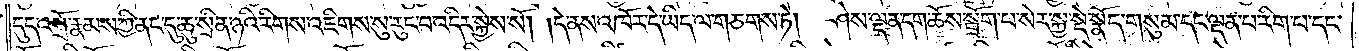དུད་འགྲོ་རྣམས་ཀྱི་ནང་དུ་ཆུ་སྲིན་ཉའི་རིགས་འཇིགས་སུ་རུང་བ་འདིར་སྐྱེས་སོ། །དེ་ནས་འཁོར་དེ་ཡིད་ལ་གཅགས་ཏེ། ཤེས་ལྡན་དག་ཆོས་སྒྲོག་པ་སེར་སྐྱ་སྡེ་སྣོད་གསུམ་དང་ལྡན་པ་རིག་པ་དང་
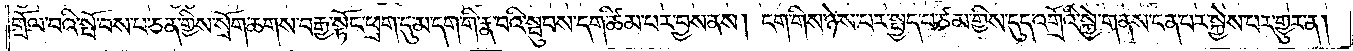གྲོལ་བའི་སྤོབས་པ་ཅན་གྱིས་སྲོག་ཆགས་བརྒྱ་སྟོང་ཕྲག་དུ་མ་དག་གི་རྣ་བའི་སྦུབས་དག་ཚིམ་པར་བྱས་ནས། ངག་གི་ཉེས་པར་སྤྱད་པ་ཙམ་གྱིས་དུད་འགྲོའི་སྐྱེ་གནས་ངན་པར་སྐྱེས་པར་གྱུར་ན།
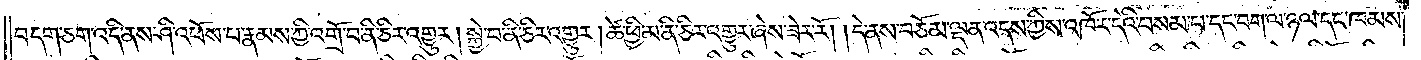བདག་ཅག་འདི་ནས་ཤི་འཕོས་པ་རྣམས་ཀྱི་འགྲོ་བ་ནི་ཅིར་འགྱུར། སྐྱེ་བ་ནི་ཅིར་འགྱུར། ཚེ་ཕྱི་མ་ནི་ཅིར་འགྱུར་ཞེས་ཟེར་རོ། །དེ་ནས་བཅོམ་ལྡན་འདས་ཀྱིས་འཁོར་དེའི་བསམ་པ་དང་བག་ལ་ཉལ་དང་ཁམས་
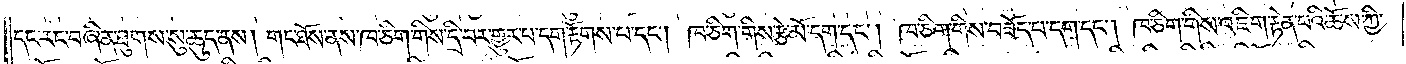དང་རང་བཞིན་ཐུགས་སུ་ཆུད་ནས། གང་ཐོས་ནས་ཁ་ཅིག་གིས་དྲི་བར་གྱུར་པ་དག་རྟོགས་པ་དང༌། ཁ་ཅིག་གིས་རྩེ་མོ་དག་དང༌། ཁ་ཅིག་གིས་བཟོད་པ་དག་དང༌། ཁ་ཅིག་གིས་འཇིག་རྟེན་པའི་ཆོས་ཀྱི་
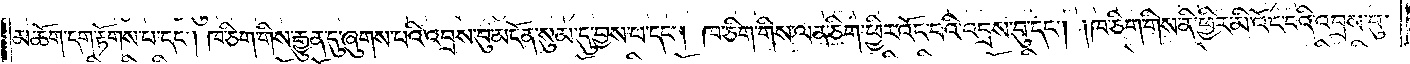མཆོག་དག་རྟོགས་པ་དང༌། ཁ་ཅིག་གིས་རྒྱུན་དུ་ཞུགས་པའི་འབྲས་བུ་མངོན་སུམ་དུ་བྱས་པ་དང༌། ཁ་ཅིག་གིས་ལན་ཅིག་ཕྱིར་འོང་བའི་འབྲས་བུ་དང༌། །ཁ་ཅིག་གིས་ནི་ཕྱིར་མི་འོང་བའི་འབྲས་བུ་
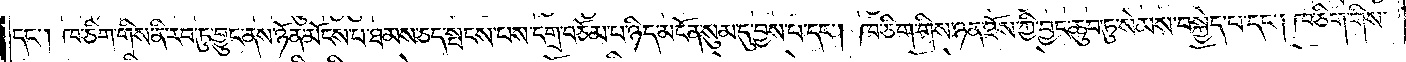དང༌། ཁ་ཅིག་གིས་ནི་རབ་ཏུ་བྱུང་ནས་ཉོན་མོངས་པ་ཐམས་ཅད་སྤངས་པས་དགྲ་བཅོམ་པ་ཉིད་མངོན་སུམ་དུ་བྱས་པ་དང༌། ཁ་ཅིག་གིས་ཉན་ཐོས་ཀྱི་བྱང་ཆུབ་ཏུ་སེམས་བསྐྱེད་པ་དང༌། ཁ་ཅིག་གིས་
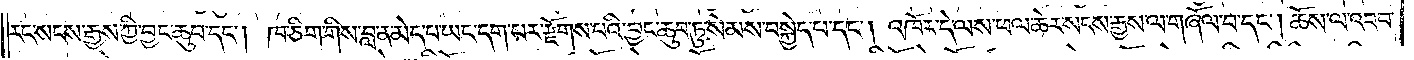རང་སངས་རྒྱས་ཀྱི་བྱང་ཆུབ་དང༌། ཁ་ཅིག་གིས་བླ་ན་མེད་པ་ཡང་དག་པར་རྫོགས་པའི་བྱང་ཆུབ་ཏུ་སེམས་བསྐྱེད་པ་དང༌། འཁོར་དེ་ལས་ཕལ་ཆེར་སངས་རྒྱས་ལ་གཞོལ་བ་དང༌། ཆོས་ལ་འབབ་
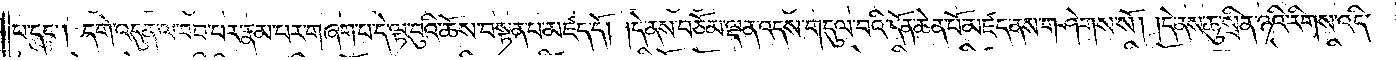པ་དང༌། དགེ་འདུན་ལ་བབ་པར་རྣམ་པར་གཞག་པ་དེ་ལྟ་བུའི་ཆོས་བསྟན་པ་མཛད་དོ། །དེ་ནས་བཅོམ་ལྡན་འདས་གདུལ་བའི་དོན་ཆེན་པོ་མཛད་ནས་གཤེགས་སོ། །དེ་ནས་ཆུ་སྲིན་ཉའི་རིགས་འདི་
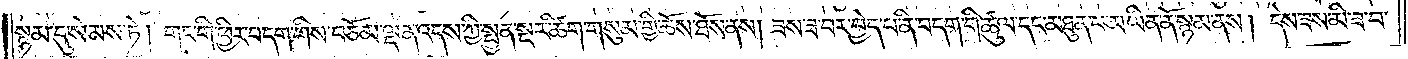སྙམ་དུ་སེམས་ཏེ། གང་གི་ཕྱིར་བདག་གིས་བཅོམ་ལྡན་འདས་ཀྱི་སྤྱན་སྔར་ཚིག་གསུམ་གྱི་ཆོས་ཐོས་ནས། ཟས་ཟ་བར་བྱེད་པ་ནི་བདག་གི་ཚུལ་དང་མཐུན་པ་མ་ཡིན་ནོ་སྙམ་ནས། དེས་ཟས་མི་ཟ་བ་
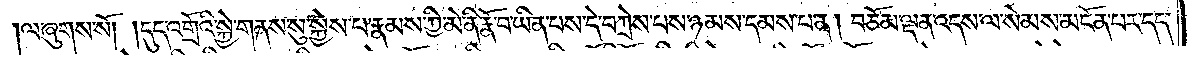ལ་ཞུགས་སོ། །དུད་འགྲོའི་སྐྱེ་གནས་སུ་སྐྱེས་པ་རྣམས་ཀྱི་མེ་ནི་རྣོ་བ་ཡིན་པས་དེ་བཀྲེས་པས་ཉམས་དམས་པ་ན། བཅོམ་ལྡན་འདས་ལ་སེམས་མངོན་པར་དད་
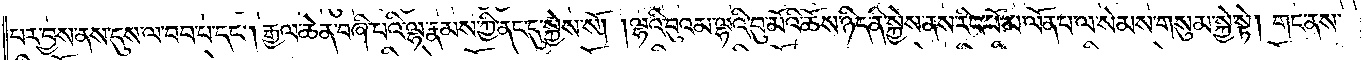པར་བྱས་ནས་དུས་ལ་བབ་པ་དང༌། རྒྱལ་ཆེན་བཞི་པའི་ལྷ་རྣམས་ཀྱི་ནང་དུ་སྐྱེས་སོ། །ལྷའི་བུའམ་ལྷའི་བུ་མོའི་ཆོས་ཉིད་ནི་སྐྱེས་ནས་རིང་པོ་མ་ལོན་པ་ལ་སེམས་གསུམ་སྐྱེ་སྟེ། གང་ནས་
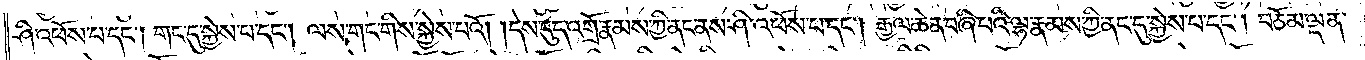ཤི་འཕོས་པ་དང༌། གང་དུ་སྐྱེས་པ་དང༌། །ལས་གང་གིས་སྐྱེས་པའོ། །དེས་དུད་འགྲོ་རྣམས་ཀྱི་ནང་ནས་ཤི་འཕོས་པ་དང༌། རྒྱལ་ཆེན་བཞི་པའི་ལྷ་རྣམས་ཀྱི་ནང་དུ་སྐྱེས་པ་དང༌། བཅོམ་ལྡན་
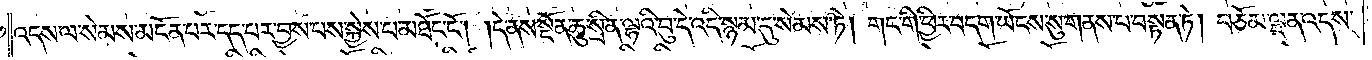འདས་ལ་སེམས་མངོན་པར་དད་པར་བྱས་པས་སྐྱེས་པ་མཐོང་ངོ༌། །དེ་ནས་སྔོན་ཆུ་སྲིན་ལྷའི་བུ་དེ་འདི་སྙམ་དུ་སེམས་ཏེ། གང་གི་ཕྱིར་བདག་ཡོངས་སུ་གནས་པ་བསྟན་ཏེ། བཅོམ་ལྡན་འདས་
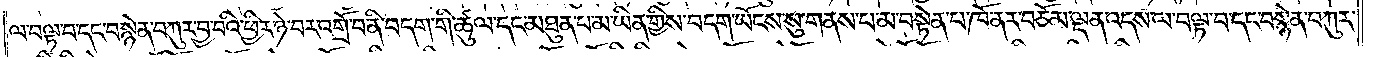ལ་བལྟ་བ་དང་བསྙེན་བཀུར་བྱ་བའི་ཕྱིར་ཉེ་བར་འགྲོ་བ་ནི་བདག་གི་ཚུལ་དང་མཐུན་པ་མ་ཡིན་གྱིས་བདག་ཡོངས་སུ་གནས་པ་མ་བསྟེན་པ་ཁོ་ནར་བཅོམ་ལྡན་འདས་ལ་བལྟ་བ་དང་བསྙེན་བཀུར་
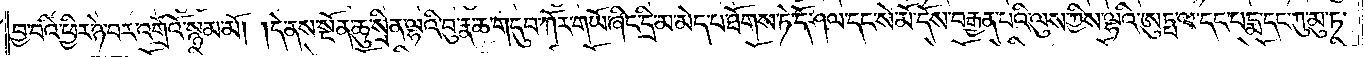བྱ་བའི་ཕྱིར་ཉེ་བར་འགྲོའོ་སྙམ་མོ། །དེ་ནས་སྔོན་ཆུ་སྲིན་ལྷའི་བུ་རྣ་ཆ་གདུབ་ཀོར་གཡོ་ཞིང་དྲི་མ་མེད་པ་ཐོགས་ཏེ་དོ་ཤལ་དང་སེ་མོ་དོས་བརྒྱན་པའི་ལུས་ཀྱིས་ལྷའི་ཨུཏྤ་ལ་དང་པདྨ་དང་ཀུ་མུ་ཏ་
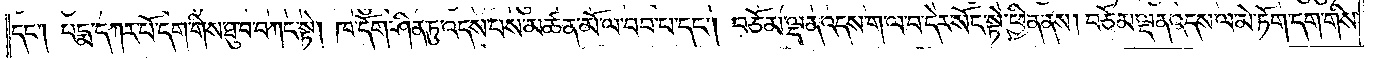དང༌། པདྨ་དཀར་པོ་དག་གིས་ཐུབ་བཀང་སྟེ། ཁ་དོག་ཤིན་ཏུ་འདས་པས་མཚན་མོ་ལ་བབ་པ་དང༌། བཅོམ་ལྡན་འདས་ག་ལ་བ་དེར་སོང་སྟེ་ཕྱིན་ནས། བཅོམ་ལྡན་འདས་ལ་མེ་ཏོག་དག་གིས་
